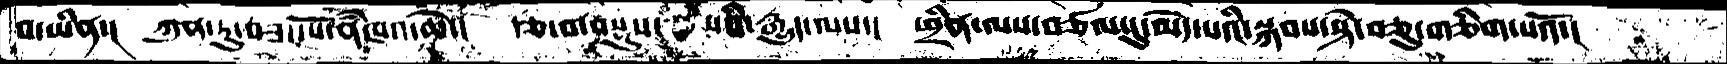བ་ཡིན་།  ཀུན་ཏུ་བཟང་པོ་ནཾཁའ་ཆེ་། རྩ་བ་བསྡུས་པའི་རྒྱུད་ལས་། ཕྲིན་ལས་བཙལ་དུ་མེད་པའི་སྐབས་སྟེ་བཅུ་གཅིག་པའོ་།
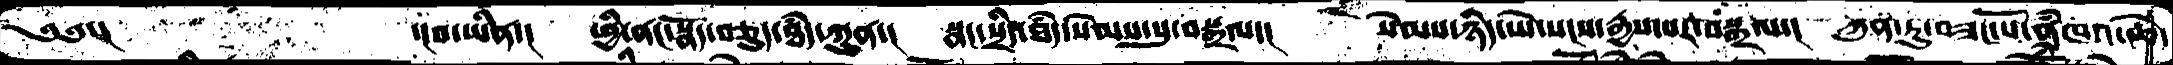༄༅་།    ་།བ་ཡིན་།  ཕྱི་ནང་སྣོད་བཅུད་ཐདཾ་ཀུན་།  སྣང་སྲིད་ཐདཾ་སེམས་སུ་བསྒྲལ་།  སེམས་ཉིད་ཡེ་སངས་རྒྱས་པར་བསྒྲལ་།  ཀུན་ཏུ་བཟང་པོ་ནཾཁའ་ཆེ་
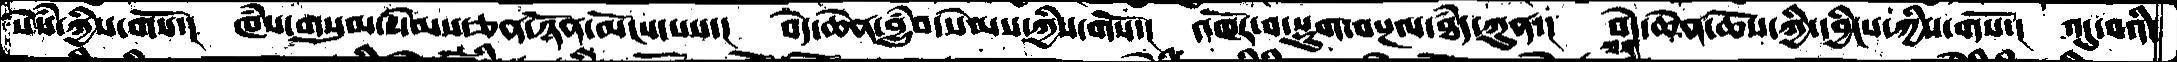སེཾས་ཀྱིས་གསོ་། ཁཾས་གསུམ་སེམས་ཅན་ཉོན་མོངས་པས་། བདེ་ཆེན་བྱུཾབ་སེམས་ཀྱིས་གསོ་། འཁོར་བ་སྡུག་བསྔལ་ཐདཾ་ཀུན་། བདེ་ཆེན་ཆོས་ཀྱི་དབྱིངས་ཀྱིས་གསོ་། འདུ་བའི་
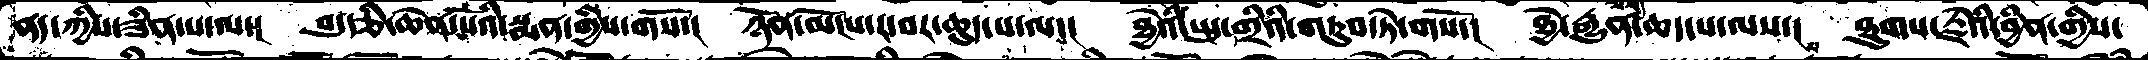ནད་ཀྱིས་ཟིན་པ་ལ་། བདུརྩི་ཆེན་པོའི་སྨན་གྱིས་གསོ་། ཉོན་མོངས་ར་བར་ཆུད་པ་ལ་། ཐྱེའི་སྤུ་གྲིའི་གཏུབ་ཏེ་གསོ་། ཐྱེ་རྒྱུན་ཆད་པ་ལས་། ཐུགས་རྗེའི་བྱིན་གྱིས་
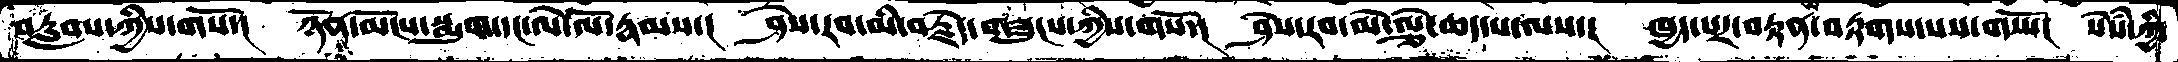བརླབས་ཀྱིས་གསོ་། ཉོན་མོངས་སྨུག་དང་ལེ་ལོ་རྣམས་། ཤེས་རབ་མི་བརྗེད་གཟུངས་ཀྱིས་གསོ་། ཤེས་རབ་མེ་ལྕེ་ཆད་པ་ལས་། ཁྱད་པར་བརྟན་བརྟགས་པས་གསོ་། སེཾས་ཀྱི་
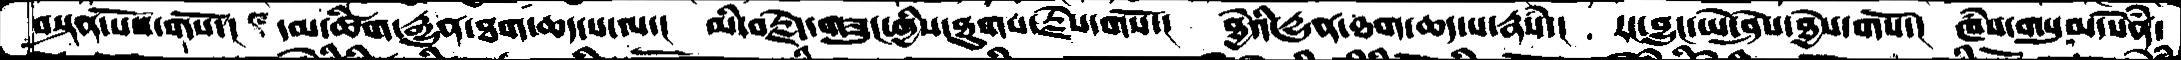བསྟན་པསོ་གསོ་། དམ་ཚིག་རྒྱུན་ཐག་ཆད་པ་ལ་། མི་བརྗེད་གཟུང་གྱིས་ཐུགས་རྗེས་གསོ་། ཐྱེའི་དྱུན་ཐག་ཆད་པ་རྣཾས་། རང་བྱུང་ཡེ་ཤེས་ཐྱེས་གསོ་། ཁཾས་གསུམ་སེནཾ་
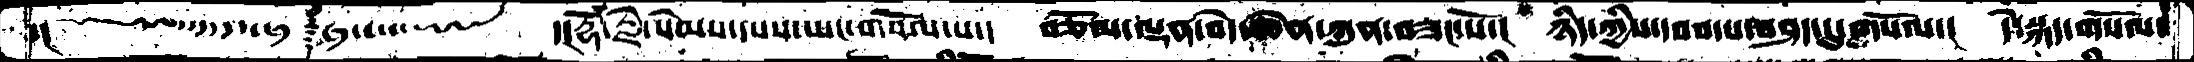་།     ༈     ་།རྡོ་རྗེ་སེམས་དཔས་ཡང་གསོལ་པ་། བཅོམ་ལྡན་བདེ་ཆེན་ཀུན་བཟང་པོ་། ཉིད་ཀྱིས་དབབ་པ་བཤད་དུ་གསོལ་། དེ་སྐད་གསོལ་
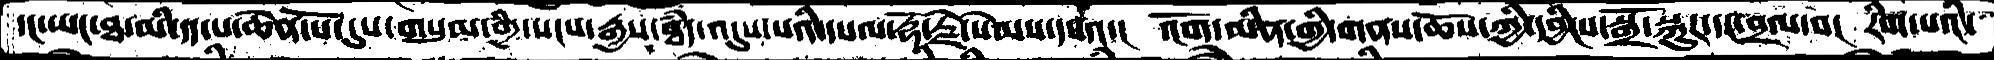དང་ཡང་ཐ་མི་དད་པ་ཆེན་པོ་དུས་གསུམ་གྱི་སངས་རྒྱས་ཐདཾ་འདུས་པའི་དཔལ་རྡོ་རྗེ་སེམས་དཔའ་། འོག་མིན་གྱི་གནས་ཆོས་ཀྱི་དབྱིངས་སྒྲོ་སྐུར་དང་བྲལ་བ་། རིག་པའི་
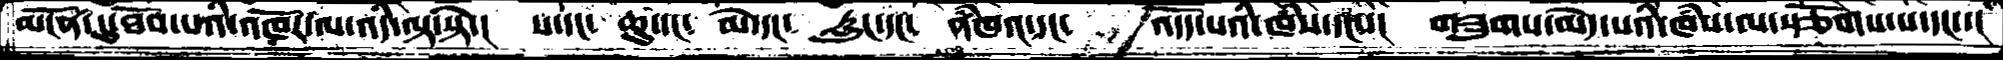མངོན་དུ་ཐོབ་པའི་འཁོར་ལ་འདི་ལྟ་སྟེ་།  ས་དང༴ ཆུ་དང༴ མེ་དང༴  རླུང་དང༴  ནཾཁའ་དང༴ འདོད་པའི་ཁཾས་དང་་། གཟུགས་མེད་པའི་ཁཾས་ལ་སྩོགས་པ་དང་་།
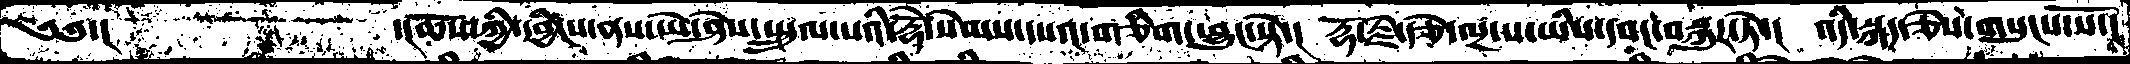༄༅་།   ་།ཆོས་ཀྱི་དབྱིངས་ནས་ཡེ་ཤེས་སྤྲུལ་པའི་རྡོེ་སེམས་དཔའ་གཅིག་ཕྱུང་སྟེ་། རྡོ་རྗེ་རྩེ་ལྔ་པ་ཡིས་དབང་བསྐུར་ཏེ་། འདི་སྐད་ཅེས་གསུངས་སོ་།
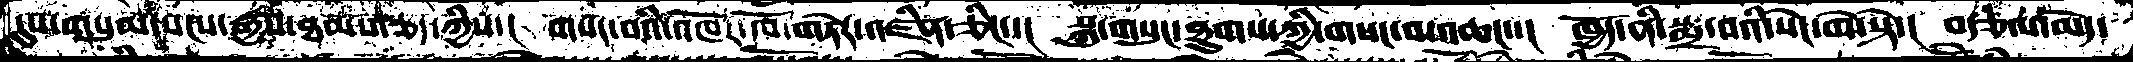དུས་གསུམ་སངས་རྒྱས་ཐམས་ཅད་ཀྱིས་།  གསང་བའི་འཁོར་ལོ་གཏེར་འཛིན་ཅིང་་། སྐུ་གསུང་ཐུགས་ཀྱི་གསང་བ་འཆང་་། ཁྱོད་ནི་སྨྲ་བའི་སེང་གེ་སྟེ་། བརྩལ་མེད་
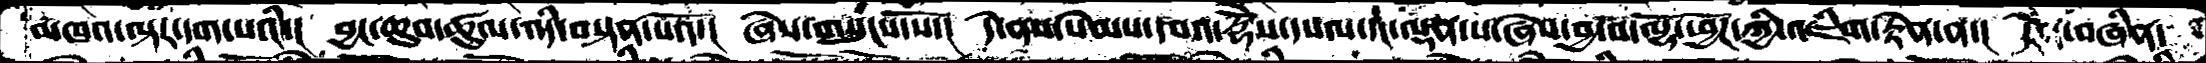མཁའ་ལྟར་དག་པའི་། བྱང་ཆུབ་ཚུལ་འདི་བསྟན་པའོ་། ཞེས་གསུངས་སོ་། དེ་ནས་སེམས་དཔའ་རྡོེས་དཔལ་དང་ལྡན་པ་ཞེས་བྱ་བ་ལྷོ་ཕྱོཌ་ཀྱི་འཇིག་རྟེན་ན་། དེ་བཞིན་
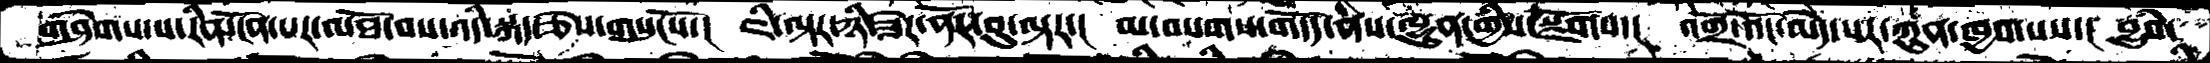གཤེགས་པ་རིན་ངོན་པར་མཐོ་བས་འདི་སྐད་ཅེས་གསུངསོ་། ཇི་ལྟར་ཉི་ཟེར་ནོར་བུ་ལྟར་། མ་བསགས་གདོད་ནས་ལྷུན་གྱིས་སྫོགས་། འགྲོ་འོང་མེད་པར་ཀུན་ཁྱབ་པས་། བྱུཾབ་
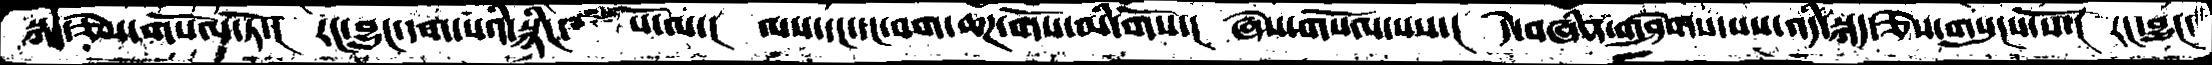སྐད་ཅེས་གསོལ་ཏོ་། རང་བྱུང་དག་པའི་སྙིང་ པོ་ལ་། ལས་དང་དང་བག་ཆཌ་གོས་མི་གོས་། ཞེས་གསོལ་པས་། དེ་བཞིན་གཤེགས་པས་འདི་སྐད་ཅེས་གསུངས་སོ་། རང་བྱུང་
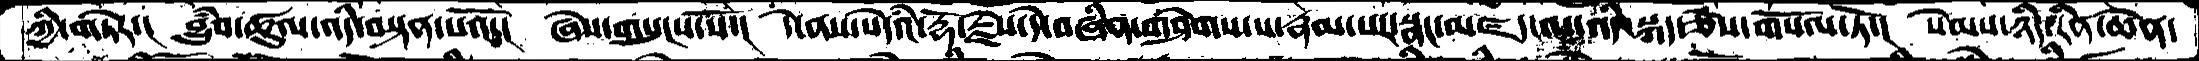ཀྱི་གཏེར་། བྱུཾབ་ཚུལ་འདི་བསྟན་པའོ་། ཞེས་གསུངས་སོ་། དེ་ནས་སེདཾའ་རྡོ་རྗེས་དེ་བཞིན་གཤེགས་པ་རྣམ་པར་སྣང་མཛད་ལ་འདི་སྐད་ཅེས་གསོལ་ཏོ་། སེམས་ཉིད་རིན་ཆེན་
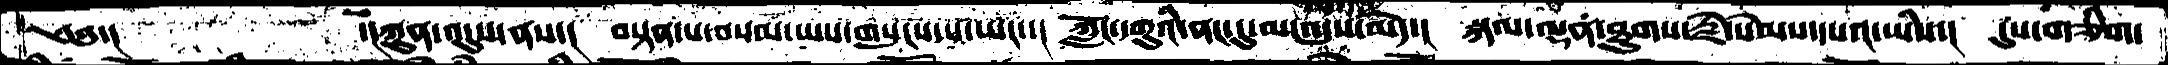༄༅་།   ་།ཀུན་འདུས་ནས་། བསྟན་པ་བསམ་ཡས་གསུངས་པ་ཡང་་། ཀློང་དགུའི་ནང་དུ་མ་འདུས་མེད་། སྐལ་ལྡན་ཐུགས་རྗེ་སེམས་དཔའ་ཡིས་། དུས་གཅིག་
